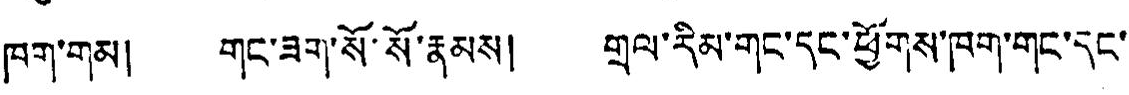ཁག་གམ། གང་ཟག་སོ་སོ་རྣམས། གྲལ་རིམ་གང་དང་ཕྱོགས་ཁག་གང་དང་
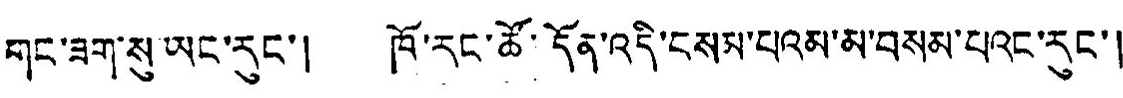གང་ཟག་སུ་ཡང་རུང་། ཁོ་རང་ཚོ་དོན་འདི་བསམ་པའམ་མ་བསམ་པའང་རུང་།
